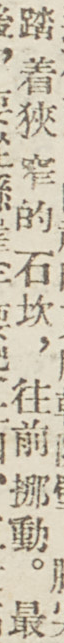踏着狹窄的石坎，往前挪動。最
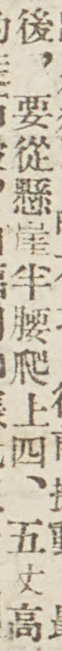後，要從懸崖半腰爬上四、五丈高
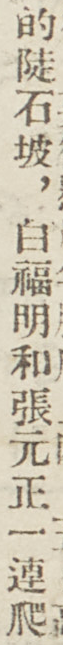的陡石坡，白福明和張元正一連爬
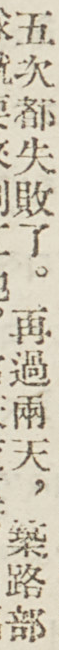五次都失敗了。再過兩天，築路部
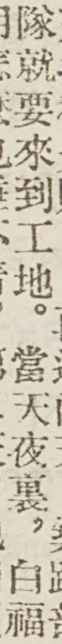隊就要來到工地。當天夜裏，白福
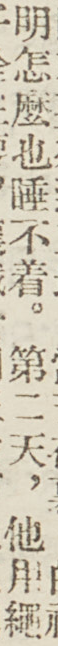明怎麼也睡不着。第二天，他用繩
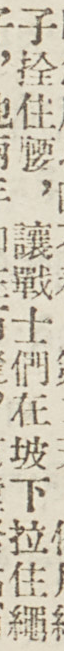子拴住腰，讓戰士們在坡下拉住繩
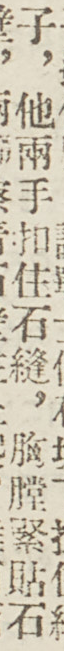子，他兩手扣住石縫，胸膛緊貼石
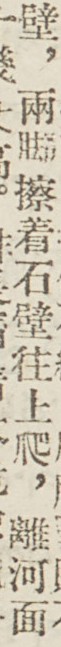壁，兩腳擦着石壁往上爬，離河面
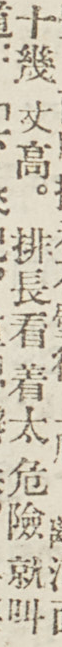十幾丈高。排長看着太危險就叫
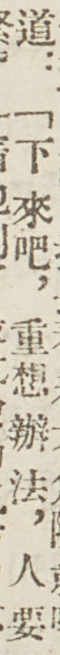道：「下來吧，重想辦法，人要
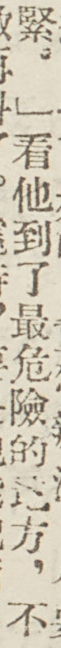緊。」看他到了最危險的地方，不
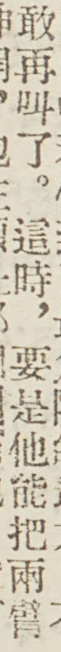敢再叫了。這時，要是他能把兩臂
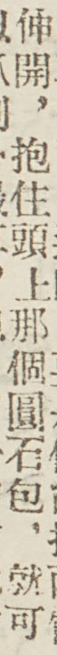伸開，抱住頭上那個圓石包，就可
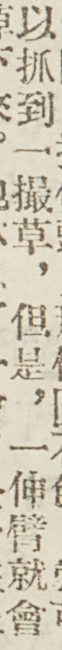以抓到一撮草，但是，一伸臂就會
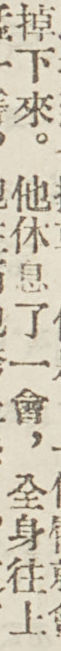掉下來。他休息了一會，全身往上
